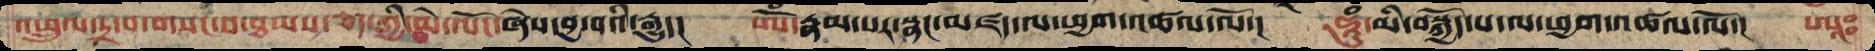འཕྲུལ་དྲ་བ་གསང་བ་ཐམས་ཅད་ཀྱི་མེ་ལོང་ཞེས་བྱ་བའི་རྒྱུད།  ཨོཾ་རྣམ་པར་སྣང་མཛད་ལ་ཕྱག་འཚལ་ལོ་། ཧཱུཾ་མི་བསྐྱོད་པ་ལ་ཕྱག་འཚལ་ལོ་། ཨཱཿ
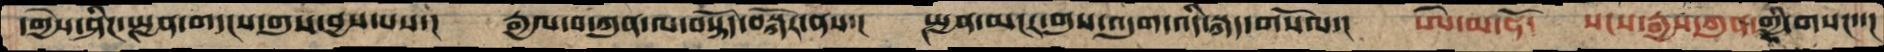དགྱེས་ཤིང་སྤྱན་གདངས་གུས་བྱས་པས་།  རྒྱལ་བ་ཀུན་ལ་བསྟོད་བསྐོར་ནས་།  སྤྱན་མངར་གུས་འདུག་འདི་སྐད་གསོལ་།  ཨེ་མ་ཧོ།  སངས་རྒྱས་ཀུན་གྱི་གསང་་།
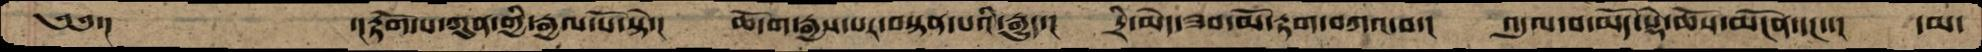༄༅་།       ་།རྟོག་པ་ཀུན་གྱི་རྒྱལ་པོ་སྟེ་།  ཆོ་ག་རྒྱས་པར་བསྟན་པའི་རྒྱུད་།  དྲི་མེད་ཟབ་མོ་རྟག་བཀའ་བ་།  འདུལ་བ་མདོ་སྡེ་ཆོས་མངོན་དང་་།  དམ་
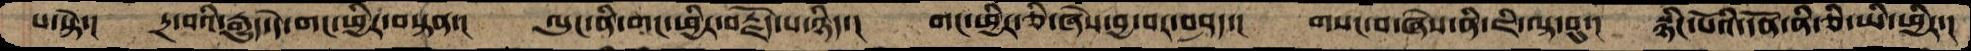པ་སྟེ་།  དྲ་བའི་རྒྱུད་དེ་གང་ཕྱིར་བསྟན་།  ལུང་ནི་གང་ཕྱིར་བརྗོད་པ་ཉིད་།  གང་ཕྱིར་ཅི་ཞེས་བྱ་བར་བཤད་།  གསང་བ་ཞེས་ནི་ཇི་ལྟ་བུ་།  སྙིང་པོའི་དོན་ནི་ཅི་ཡི་ཕྱིར་།
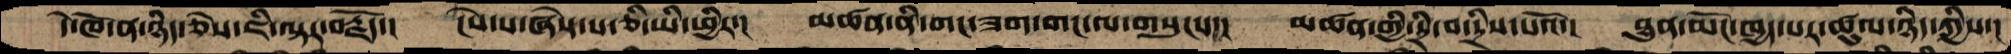དེ་ཁོ་ན་ཉིད་ཅེས་ཇི་ལྟར་བརྗོད་།  ངེས་པ་ཞེས་པ་ཅི་ཡི་ཕྱིར་།  མཚན་ནི་གང་ཟག་གང་ལ་གསུངས་།  མཚན་གྱི་དྲི་བ་དྲིས་པའོ་།  ཐུན་མོང་ཁྱད་པར་ཚུལ་ཉིད་ཀྱིས་།
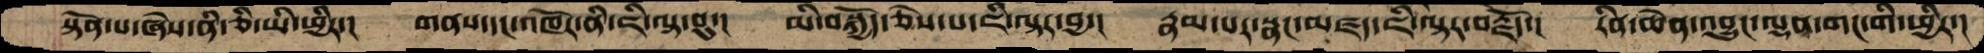སྟོན་པ་ཞེས་ནི་ཅི་ཡི་ཕྱིར་།  གནས་དང་འཁོར་ནི་ཇི་ལྟ་བུ་།  མི་བསྐྱེད་ཅེས་པ་ཇི་ལྟར་བྱ་།  རྣམ་པར་སྣང་མཛད་ཇི་ལྟར་བརྗོད་།   རིན་ཆེན་འབྱུང་ལྡན་གང་གི་ཕྱིར་།
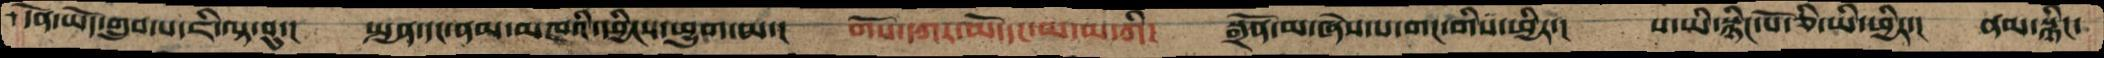དོན་ཡོད་གྲུབ་པ་ཇི་ལྟ་བུ་།  སྤྱན་དང་ནམ་མཁའི་དབྱིངས་ཕྱུག་མ་།  གོས་དཀར་མོ་དང་མ་མ་ཀི།  སྒྲོན་མ་ཞེས་པ་གང་གིས་ཕྱིར་།  ས་ཡི་སྙིང་པོ་ཅི་ཡི་ཕྱིར་།  ནམ་སྙིང་
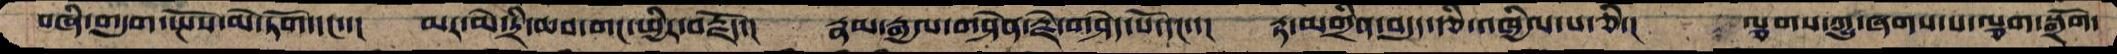བཞི་གདུག་སྤོས་མེ་ཏོག་དང་་།  མར་མེ་དྲི་ཆབ་གང་ཕྱིར་བརྗོད་།  རྣམ་རྒྱལ་གཤེན་རྗེ་གཤེད་པོ་དང་་།   རྟ་མགྲིན་བདུད་རྩི་འཁྱིལ་པ་ཅི་།  ལྕགས་ཀྱུ་ཞགས་པ་ལྕག་སྒྲོག་
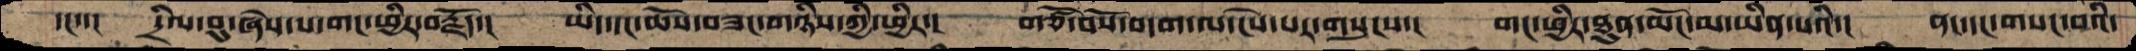དང་་།  དྲིལ་བུ་ཞེས་པ་གང་ཕྱིར་བརྗོད་།  ཡིད་དང་ཆོས་བཟང་གཉིས་ཀྱི་ཕྱིར་།  གཙོ་བོས་བདག་ལ་ངེས་པར་གསུངས་།  གང་ཕྱིར་ཐུན་མོང་མ་ཡིན་པའི་།  ནང་དང་གསང་བའི་
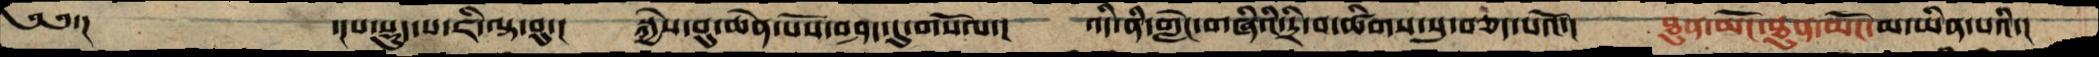༄༅་།    ་།པ་སྡུད་པ་ཇི་ལྟ་བུ་།  སྐྱེས་བུ་ཆེན་པོས་བཤད་དུ་གསོལ་།  འདི་ནི་གླེང་གཞིའི་དྲི་བ་ཚིགས་སུ་བཅད་པའོ་།  ཐུན་མོང་ཐུན་མོང་མ་ཡིན་པའི་།
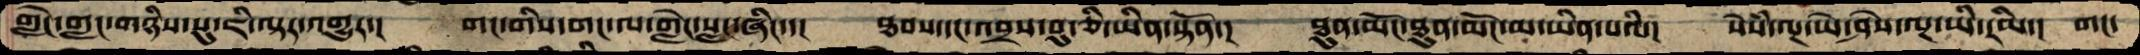གླེང་གླང་གཉིས་སུ་ཇི་ལྟར་འགྱུར་།  གང་གིས་གང་ལ་གླེང་སླང་ཞིང་་།  ཐབས་དང་འབྲས་བུ་ཅི་ཡིན་སྟོན་།  ཐུན་མོང་ཐུན་མོང་མ་ཡིན་པའི་།  སེཾས་ལྔ་ཡེ་ཤེས་ལྔ་ཡི་རིམ་།  གང་
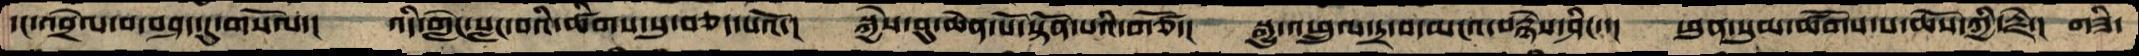དང་འབྲེལ་བ་བཤད་དུ་གསོལ་།  འདི་གླེང་སླང་བའི་ཚིགས་སུ་བཅད་པའོ་།  སྐྱེས་བུ་ཆེན་པོ་སྟོན་པའི་གཙོ་།  སྒྱུ་འཕྲུལ་དྲ་བ་མངའ་བརྙེས་ཤིང་་།  ཕུན་སུམ་ཚོགས་པ་ཆོས་ཀྱི་རྗེ་།  གཟི་
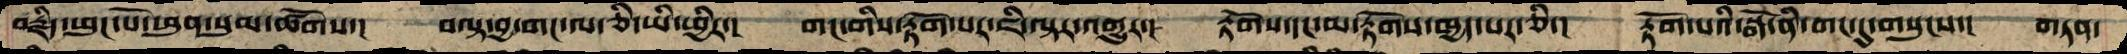བརྗིད་ཕུང་པོ་ཕུན་སུམ་ཚོགས་།  བལྟ་བྱ་གང་ལ་ཅི་ཡི་ཕྱིར་།  གང་གིས་རྟོག་པར་ཇི་ལྟར་འགྱུར་།  རྟོགས་དང་མ་རྟོགས་ཁྱད་པར་ཅི་།  རྟོག་པའི་སྒོ་ནི་གང་དུ་གསུངས་།  གཏན་
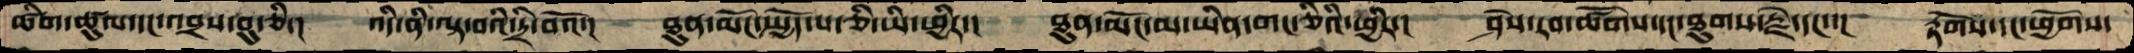ཚིག་ཚུལ་དང་འབྲས་བུ་ཅི་།  འདི་ནི་ལྟ་བའི་དྲི་བའོ་།  ཐུན་མོང་སྤྱོད་པ་ཅི་ཡི་ཕྱིར་།  ཐུན་མོང་མ་ཡིན་གང་ཅིའི་ཕྱིར་།  ཤེས་རབ་ཚོགས་དང་ཐུགས་རྗེ་དང་་།  རྟོགས་དང་ཕྱོགས་
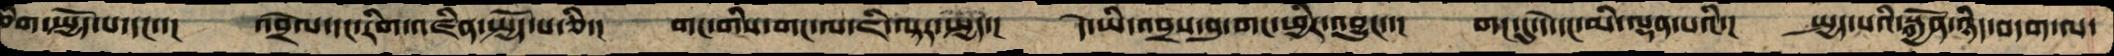ཅིག་སྤྱོད་པ་དང་་།  འབྲེལ་དང་རིག་འཛིན་སྤྱོད་པ་ཅི་།  གང་གིས་གང་ལ་ཇི་ལྟར་སྤྱད་།  དེ་ཡི་འབྲས་བུ་གང་ཕྱིར་འབྱུང་་།  གང་དུ་དེ་དང་མི་ལྡན་པའི་།  སྤྱད་པའི་སྐྱོན་ཉིད་བདག་ལ་
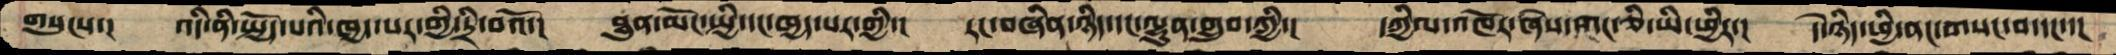གསུངས་།  འདི་ནི་སྤྱོད་པའི་ཁྱད་པར་གྱི་དྲི་བའོ་།  ཐུན་མོང་སྤྱི་དང་ཁྱད་པར་གྱི་།   རང་བཞིན་ཉིད་དང་ལྷུན་གྲུབ་ཀྱི་།  དཀྱིལ་འཁོར་ཞེས་གང་ཅི་ཡི་ཕྱིར་།  དེ་ཉིད་ཕྱི་ནང་གསང་བ་དང་་།
